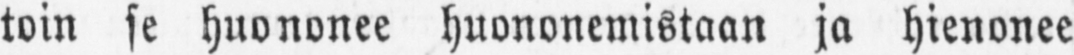toin se huononee huononemistaan ja hienonee
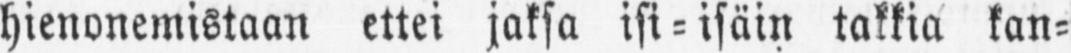hienonemistaan ettei jaksa isi-isäin takkia kan-
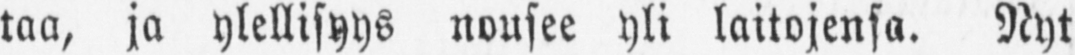taa, ja ylellisyys nousee yli laitojensa. Nyt
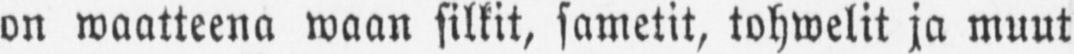on waatteena waan silkit, sametit, tohwelit ja muut
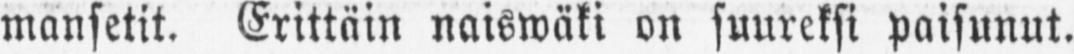mansetit. Erittäin naiswäki on suureksi paisunut.
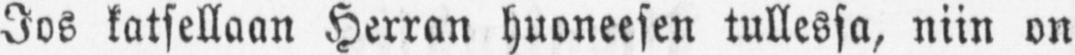Jos katsellaan Herran huoneesen tullessa, niin on
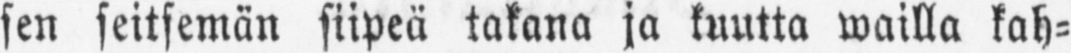sen seitsemän siipeä takana ja kuutta wailla kah-
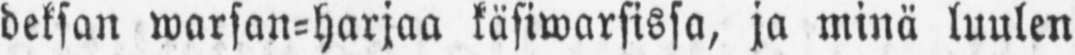deksan warsan-harjaa käsiwarsissa, ja minä luulen
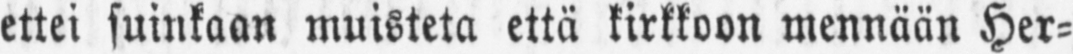ettei suinkaan muisteta että kirkkoon mennään Her-
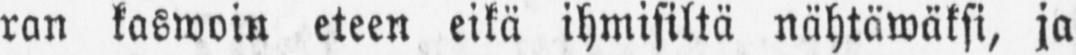ran kaswoin eteen eikä ihmisiltä nähtäwäksi, ja
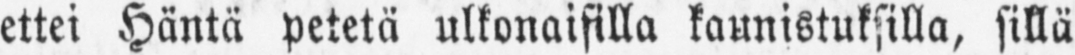ettei Häntä petetä ulkonaisilla kaunistuksilla, sillä
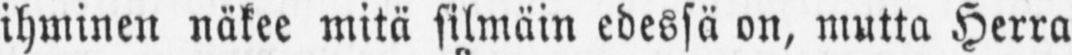ihminen näkee mitä silmäin edessä on, mutta Herra
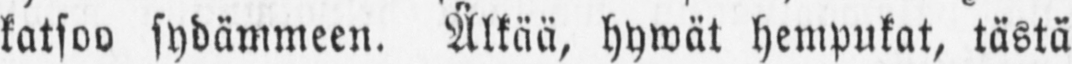katsoo sydämmeen. Älkää, hywät hempukat, tästä
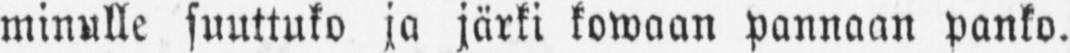minulle suuttuko ja järki kowaan pannaan panko.
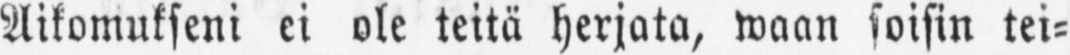Aikomukseni ei ole teitä herjata, waan soisin tei-
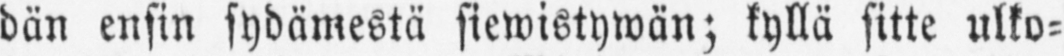dän ensin sydämestä siewistywän; kyllä sitte ulko-
